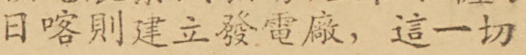日喀則建立發電廠，這一切
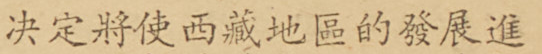決定將使西藏地區的發展進
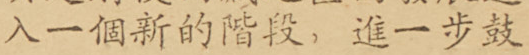入一個新的階段，進一步鼓
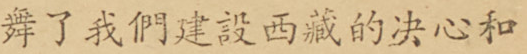舞了我們建設西藏的決心和
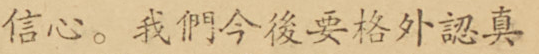信心。我們今後要格外認真
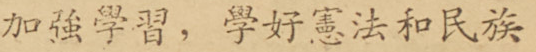加強學習，學好憲法和民族
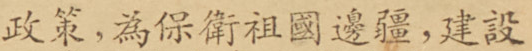政策，為保衛祖國邊疆，建設
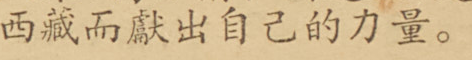西藏而獻出自己的力量。
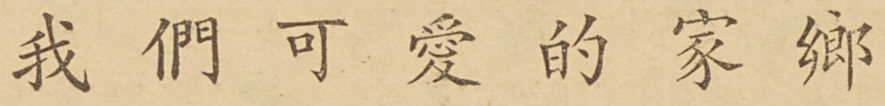我 們 可 愛 的 家 鄉
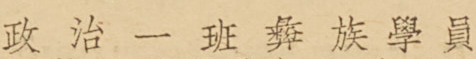政 治 一 班 彝 族 學 員
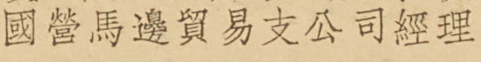國營馬邊貿易支公司經理
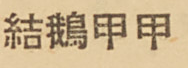結鵝甲甲
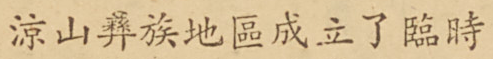涼山彝族地區成立了臨時
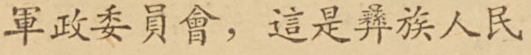軍政委員會，這是彝族人民
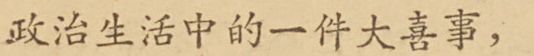政治生活中的一件大喜事，
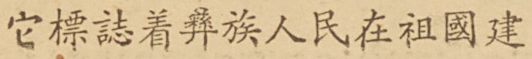它標誌着彝族人民在祖國建
